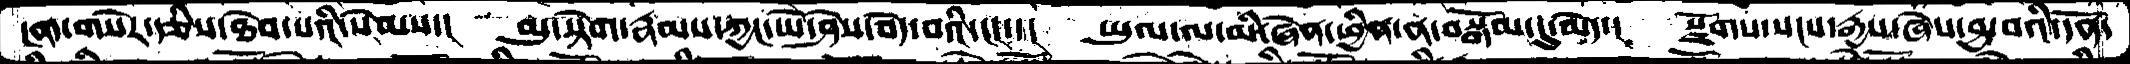ངག་གསེར་རྩིས་ཐེབ་པའི་སེམས་།  མུ་སྟེགས་རྣམས་ཀྱང་ཡེ་ཤེས་བདེ་བའི་ངང་་།  ཡུལ་ལ་མི་ཞེན་ཕྱིན་ན་བསྒོམ་དུ་མེད་།  སྫོགས་སངས་རྒྱས་ཞེས་བྱ་བའི་དོན་
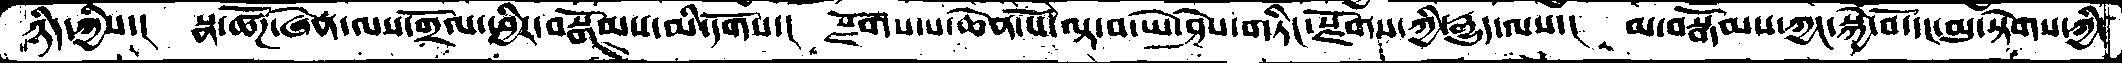ཉིད་ཀྱིས་།  སྣ་ཚོཌ་ཞེན་ལས་གྲོལ་ཕྱིར་བསྒོམས་མི་དགོས་།  སྫོགས་པ་ཆེན་པོལྟ་བ་ཡེ་ཤེས་གཏིང་སྫོགས་ཀྱི་རྒྱུད་ལས་།  མ་བསྒོམས་ཀྱང་སྐྱེ་བོ་དང་མུ་སྟེགས་ཀྱི་
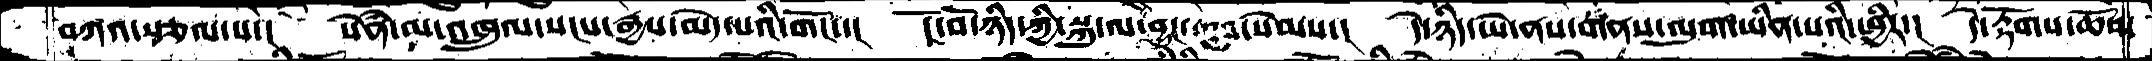བཀའ་རྩལ་པ་།  སེཾན་མ་འཁྲུལ་སངས་རྒྱས་མེད་པའི་གོང་་།  ངོ་བོ་ཉིད་ཀྱི་སྐུ་ལ་བྱང་ཆུབ་སེམས་།  དེ་ཉིད་ཡེ་ནས་གནས་ལུགས་ཡིན་པའི་ཕྱིར་།  དེ་རྟོགས་ཆོས་
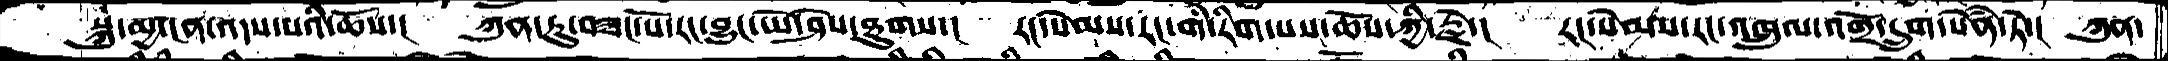སྐུ་མྱ་ངན་འདས་པའི་ཆོས་།  ཀུན་ཏུ་བཟང་པོ་རང་བྱུང་ཡེ་ཤེས་ཐུགས་།  རང་སེམས་རང་གི་རིག་པས་ཆོས་ཀྱི་རྗེ་།  རང་སེམས་རང་འཁྲུལ་འགྲོ་དྲུག་སེནཾ་ཏེ་།  ཀུན་
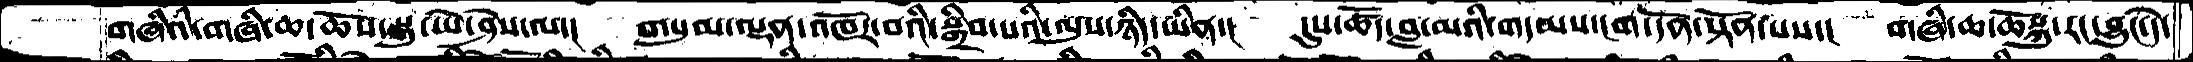གཞིའི་གཞི་ཆ་ཆོས་སྐུ་ཡེ་ཤེས་ལ་།  གསུམ་ལྡན་འཁོར་བའི་སྒྲིབ་པའི་ལུས་ཉིད་ཡིན་།  དུས་ཚོད་བླ་མའི་གདམས་ངག་དོན་སྟོན་པས་།  གཞི་ཆ་ཆོསྐུ་རང་བྱུང་དེ་
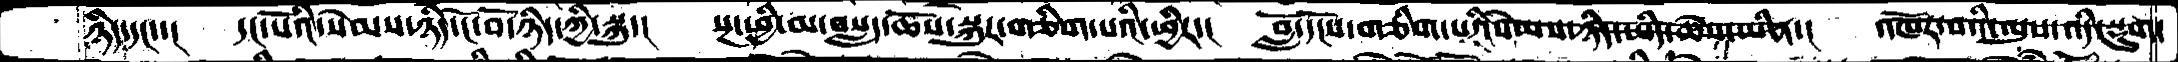ཉིད་དང་་།། དང་པོའི་་སེམས་ཉིད་ངོ་བོ་ཉིད་ཀྱི་སྐུ་། སྔ་ཕྱི་མ་བསླད་ཆོས་སྐུར་གཅིག་པའི་ཕྱིར་། བློ་དངོས་གཅིག་པའི་སེམས་ཉིད་ཡིད་ཆེས་ཡིན་། འཁོར་བའི་ལུས་འདི་སྡུག་
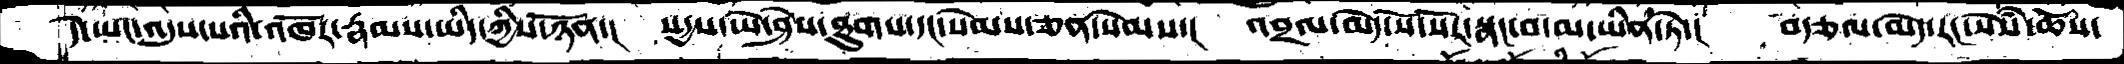དེ་ཡང་འདུས་པའི་འཁོར་རྣམས་ཡིད་ཀྱིས་ཉོན་།  སདྱས་ཡེ་ཤེས་ཐུགས་དང་སེམས་ཅན་སེམས་།  འབྲལ་མེད་སོ་སོར་སྣང་བ་མ་ཡིན་ཏེ་།  བརྩལ་མེད་རང་སེསཾ་ཆོས་
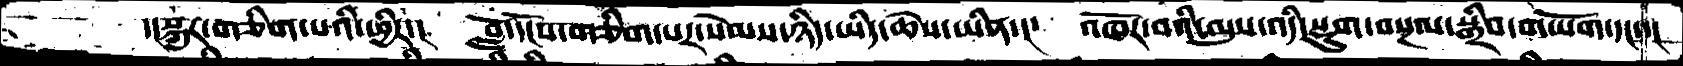་།སྐུར་གཅིག་པའི་ཕྱིར་།  བློ་དངོས་གཅིག་པར་སེམས་ཉིད་ཡིད་ཆེས་ཡིན་།  འཁོར་བའི་ལུས་འདི་སྡུག་བསྔལ་སྒྲིབ་གཡོག་དང་་།
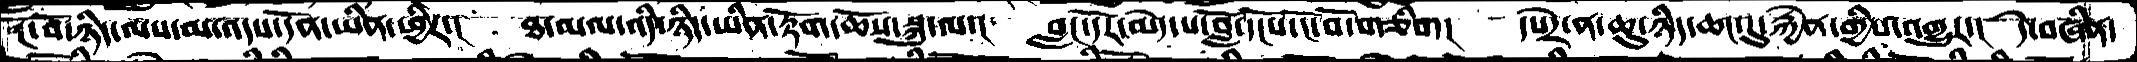ངོ་བ་ཉིད་ལས་མ་འདས་དོན་ཡིན་ཕྱིར་།  ཐ་མལ་འདི་ཉིད་ཡིན་རྟོག་ཆོས་སྐུ་ལ་།  བླང་དོར་མེད་པ་བློ་དངོས་ངོ་བོ་གཅིག།  དཔེར་ན་ཆུ་ཉིད་ཆང་དུ་རྐྱེན་གྱིས་འགྱུར་།  དེ་བཞིན་
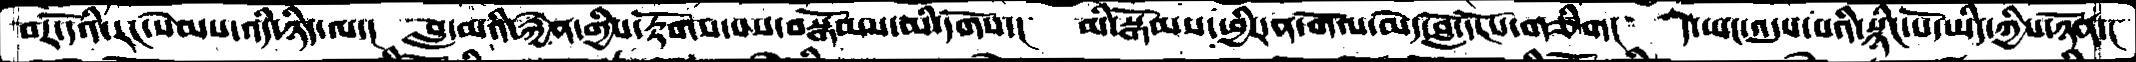བར་དོའི་རང་སེམས་འདི་ཉིད་ལ་།  བླ་མའི་རྐྱེན་གྱིས་རྟོགས་པས་བསྒོམས་མི་དགོས་།  མི་སྒོམས་ཕྱིར་ན་གོལ་མེད་བློ་དངོས་གཅིག།  དེ་ཡང་འདུས་པའི་སྙིང་པོ་ཡིད་ཀྱིས་ཉོན་།
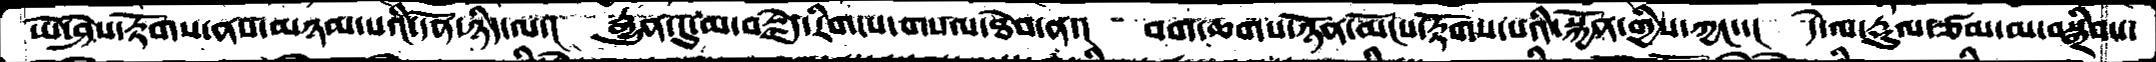ཡེ་ཤེས་རྟོགས་ནས་མཉམ་པའི་དོན་ཉིད་ལ་།  རྒྱུན་དུ་མ་བརྗེད་རིག་པ་གསལ་ཐེབ་ན་།  བག་ཆགས་ཉོན་མོངས་རྟོགས་པའི་སྐྱོན་གྱིས་ཀྱང་་།   དེ་ལ་རྡུལ་ཙམ་མ་བསྒྲིབས་
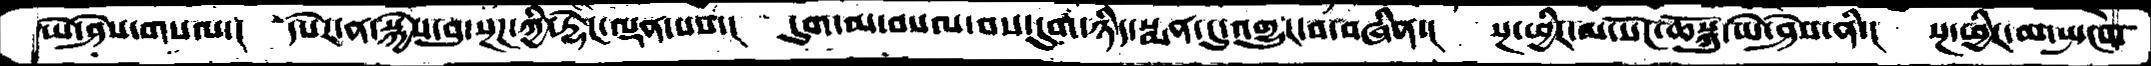ཡེ་ཤེས་གསལ་།  དཔེར་ན་སྐྱེས་བུ་སྔཌ་ཀྱི་རྡེང་ལྡན་པས་།   དུག་མ་བསལ་བས་དུག་ཉིད་སྨན་དུ་འགྱུར་བ་བཞིན་།  སྔ་ཕྱིར་ལ་སོཌ་ཆོསྐུ་ཡེ་ཤེས་ནི་།  སྔ་ཕྱིར་མ་སྤངས་
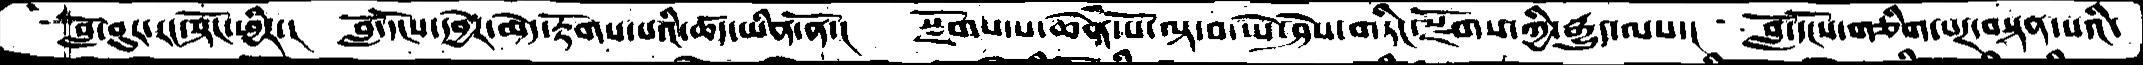བློ་བུར་རང་སྟོང་ཕྱིར་།   བློ་དངོས་དབྱེར་མེད་རྟོགས་པའི་ཚད་ཡིན་ནོ་།  སྫོགས་པ་ཆེན་པོ་ལྟ་བ་ཡེ་ཤེས་གཏིང་སྫོགས་ཀྱི་རྒྱུད་ལས་།  བློ་དངོས་གཅིག་པར་བསྟན་པའི་
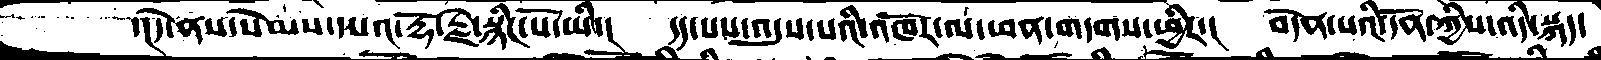་།དེ་ནས་སེམས་དཔའ་རྡོ་རྗེ་སྙིང་པོ་ཡི་།    དད་པས་འདུས་པའི་འཁོར་ལ་ཕན་གདགས་ཕྱིར་།  བདེན་པའི་དོན་ཀྱིས་འདི་སྐད་
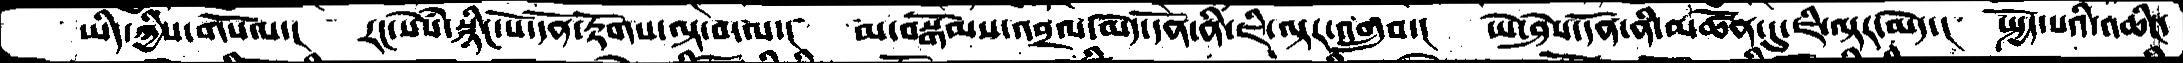ཡིད་ཀྱིས་གསོལ་།   རང་སེཾས་སྙིང་པོ་དོན་རྟོགས་ལྟ་བ་ལ་།  མ་བསྒོམས་འབྲལ་མེད་དོན་ནི་ཇི་ལྟར་འགྲུབ་།  ཡེ་ཤེས་དོན་ནི་མཚོན་དུ་ཇི་ལྟར་མེད་།  སྤྱོད་པའི་འཆིང་
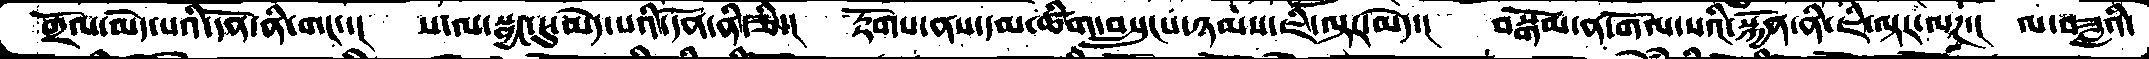གྲོལ་མེད་པའི་དོན་ནི་གང་་།  ས་ལ་སྦྱང་དུ་མེད་པའི་དོན་ནི་ཅི་།  རྟོགས་ནས་དམ་ཚིག་བསྲུངས་ཉམས་ཇི་ལྟར་མེད་།   བསྒོམ་ན་གོལ་སའི་སྐྱོན་ནི་ཇི་ལྟར་ལཌ་།  ལ་བཟླའི་
